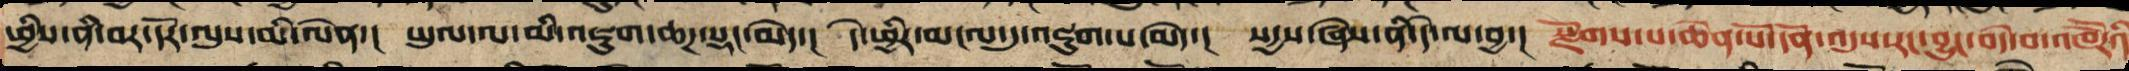ཕྱིས་ནི་བར་དོར་ལུས་མི་ལེན་། ཡུལ་ལ་མི་འཇུག་ཆཌ་སྡང་མེད་། དེ་ཕྱིར་མངལ་དུ་འཇུག་པ་མེད་། སདྱས་ཞེས་ནི་དེ་ལ་བྱ་། སྫོགས་པ་ཆེན་པོ་དོན་འདུས་རང་བྱུང་བདེ་བའི་འཁོརོའི
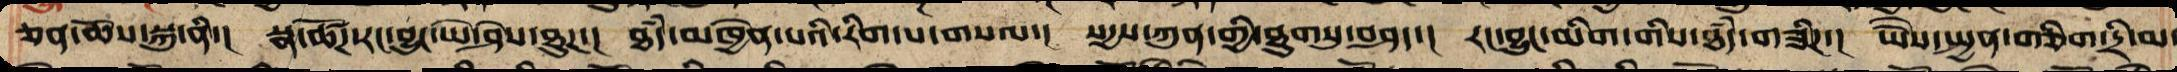ཅན་ཆོས་སྐུ་ནི་། སྣ་ཚོཌ་རང་བྱུང་ཡེ་ཤེས་ཐུཌ་། ཐཾད་མཁྱེན་པའི་རིག་པ་གསལ་། སདྱས་ཀུན་གྱི་ཐུགསུ་བཤད་། རང་བྱུང་མིག་གིས་ཐཾད་གཟིཌ་། ཡཻས་སྤྱན་གཅིག་དྲི་མ་
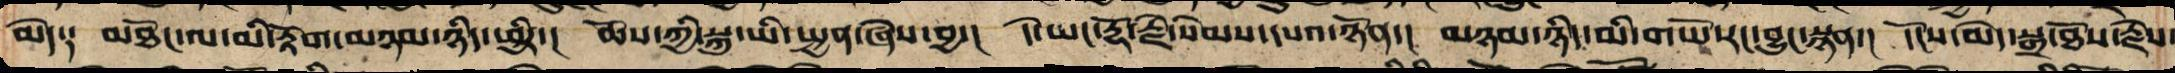མེད༑ མཐོང་ལ་མི་རྟོག་མཉམ་ཉིད་ཕྱིར་། ཆོས་ཀྱི་སྐུ་ཡི་སྤྱན་ཞེས་བྱ་། དེ་ཡང་རྡོ་རྗེ་སེམས་དཔའ་ཉོན་། མཉམ་ཉིད་མི་གཡོ་རང་བྱུང་སྙན་། དངོས་མེད་སྒྲ་ཐོས་རྗེས་
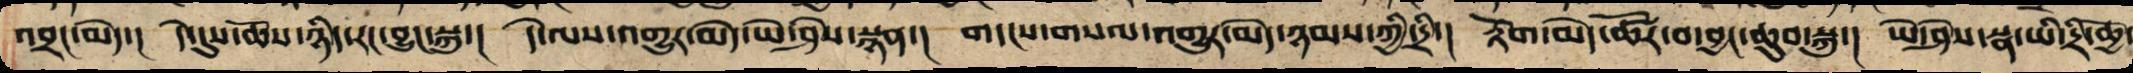འབྲང་མེད་། དེ་དུས་ཆོས་ཉིད་རང་བྱུང་སྐུ་། དེ་ལས་འགྱུར་མེད་ཡེ་ཤེས་སྙན་། གདངས་གསལ་འགྱུར་མེད་ཉམས་ཀྱི་དྲི་། རྟོག་མེད་ཚོར་བ་བྱང་ཆུབ་སྐུ་། ཡེ་ཤེས་སྣ་ལ་དྲི་ཆྱོ་
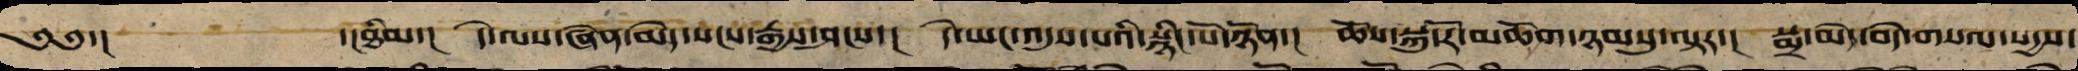༄༅་། ་།ཐིམ་། དེ་ལས་ཞེན་མེད་སངས་རྒྱས་ཤངས་། དེ་ཡང་འདུས་པའི་སྙིང་པོ་ཉོན་། ཆོས་སྐུ་རོ་མཆོག་ཉམསུ་ལྟར་། སྨྲ་མེད་བདེ་གསལ་སདྱས་
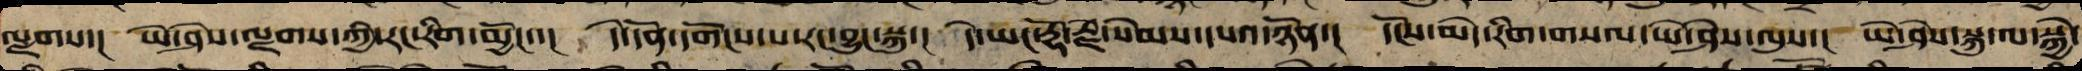ལྗགས་། ཡེ་ཤེས་ལྗགས་ཀྱིས་རང་རིག་མྱོང་་། དེ་དོན་དགོངས་པ་རང་བྱུང་སྐུ་། དེ་ཡང་རྡོ་རྗེ་སེམས་དཔའ་ཉོན་། དངོས་མེད་རིག་གསལ་ཡེ་ཤེས་ལུས་། ཡེ་ཤེས་སྐུ་ལ་སྐྱེ་
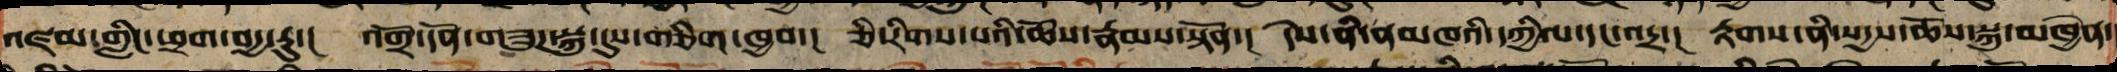འཛམ་གླིང་ཕྲག་བདྱ་རུ་། འགྲོ་དོན་གཟུཌ་སྐུ་དུས་གཅིག་ཁྱབ་། ཅི་རིགས་པའི་ཆོས་རྣམས་སྟོན་། དེས་ནི་ནམཁའི་དཀྱིལ་དང་འདྲ་། རྟགས་ནི་སདྱས་ཆོས་ཀུན་མཁྱེན་
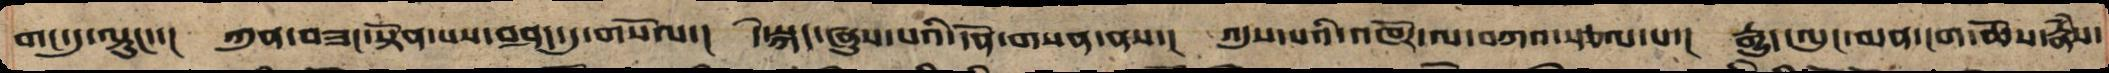གང་དུ་ལྟུང་་། ཀུན་བཟང་སྟོན་པས་བཤད་དུ་གསོལ་། དེ་སྐད་ཞུས་པའི་དོན་གསན་ནས་། འདུས་པའི་འཁོར་ལ་བཀའ་སྩལ་པ་། རྒྱུད་ལུང་མན་ངག་ཆོས་རྣཾས་
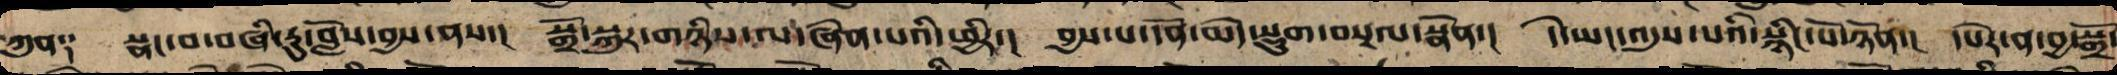ཀུན༑ སྣང་བ་བཞི་རུ་བློས་བྱས་པས་། སྒྲོ་སྐུར་གཉིས་ལ་ཞེན་པའི་ཕྱིར་། བྱས་པ་དོན་མེད་སྡུག་བསྔལ་སྣོན་། དེ་ཡང་འདུས་པའི་སྙིང་པོ་ཉོན་། དཔེར་ན་བྱ་སྒྲོ་
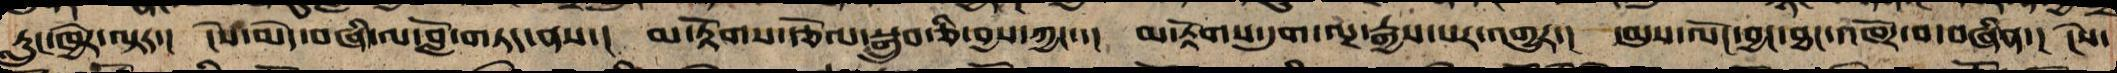རླུང་ཁྱེར་ལྟར་། ངེས་མེད་གཞི་ལ་བློ་གཏད་ནས་། མ་རྟོགས་རྩོལ་སྒྲུབ་ཅི་སྤྱད་ཀྱང་་། མ་རྟོགས་དུག་ལྔ་རྒྱས་པར་འགྱུར་། དམུས་ལོང་བྱང་ཐང་འཁོར་བ་བཞིན་། ངེས་
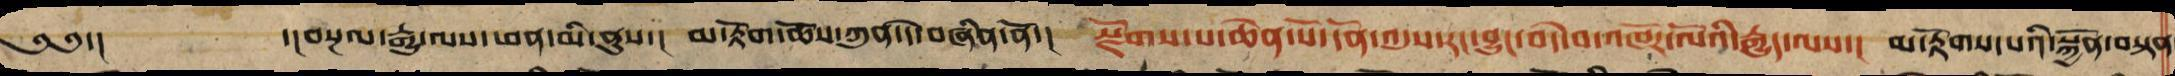༄༅་། ་།བསྔལ་རྒྱུ་ལས་ཕན་མི་ནུས་། མ་རྟོགས་ཆོས་ཀུན་དེ་བཞིན་ནོ་། སྫོགས་པ་ཆེན་པོ་དོན་འདུས་རང་བྱུང་བདེ་བའི་འཁོར་ལོའི་རྒྱུད་ལས་། མ་རྟོགས་པའི་སྐྱོན་བསྟན
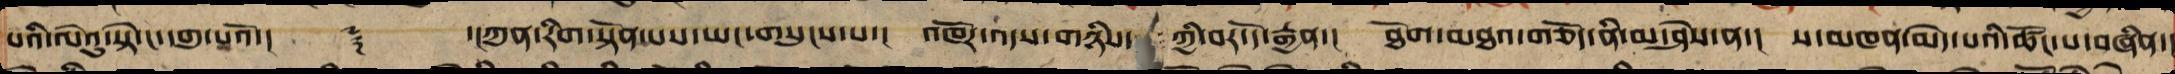པའི་ལེའུ་སྟེ་ང་དགུ་པའོ་།། ༈ །་།ཀུན་རིག་སྟོན་པས་ཡང་གསུངས་པ་། འཁོར་འདས་གཉིས་ཀྱི་བར་དོའི་རྒྱུན་། ཐོག་མཐའ་གཅོད་ནི་མ་ཤེས་ན་། ས་མཁན་མེད་པའི་ཚོང་པ་བཞིན་།
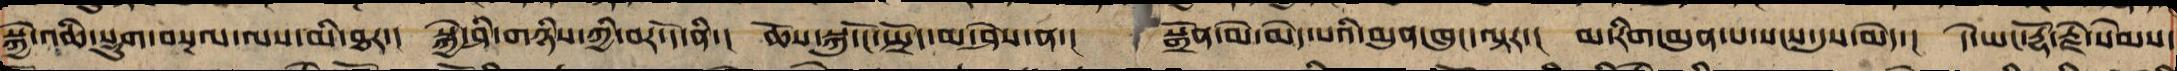སྐྱེ་འཆི་སྡུག་བསྔལ་ལས་མི་ཐར་། སྐྱེ་ཤི་གཉིས་ཀྱི་བར་དོར་ནི་། ཆོས་སྐུ་ངོ་སྤྲོད་མ་ཤེས་ན་། སྒྲོན་མེ་མེད་པའི་མུན་ཁུང་ལྟར་། མ་རིག་མུན་པ་སངས་དུས་མེད་། དེ་ཡང་རྡོ་རྗེ་སེམས་
